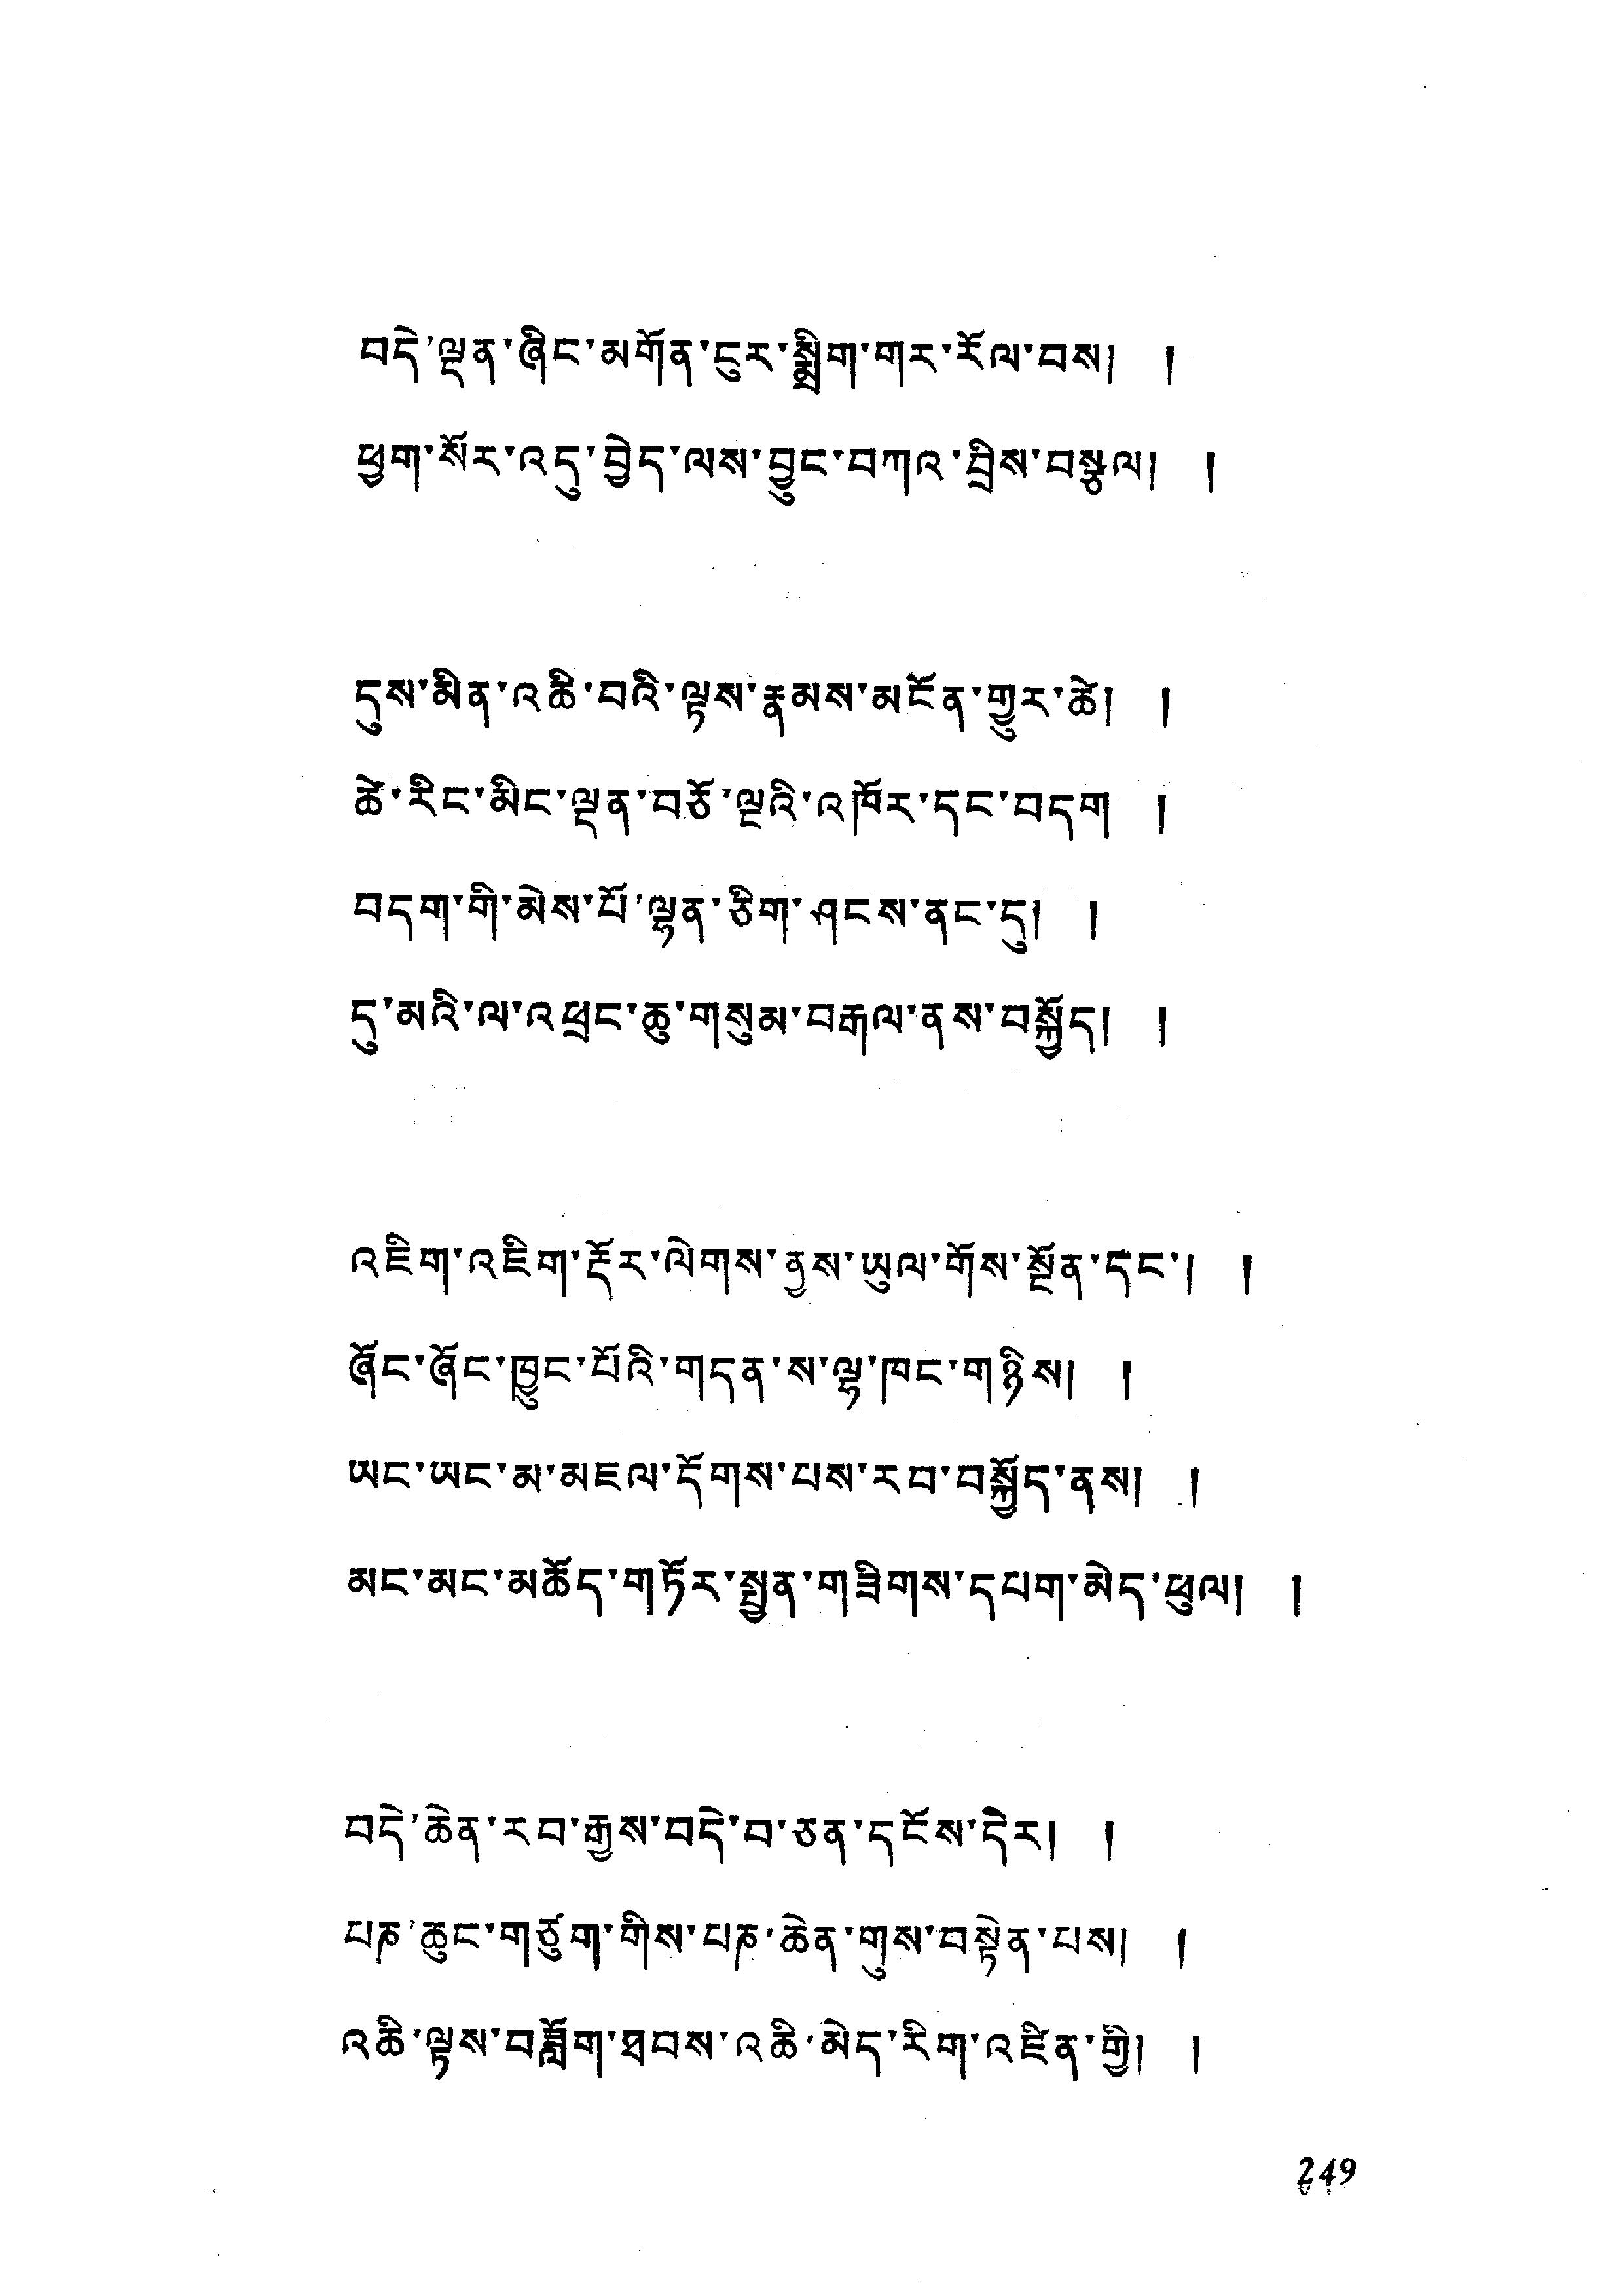བདེ་ལྡན་ཞིང་མགོན་ངུར་སྨྲིག་གར་རོལ་བས། །
ཕྱག་སོར་འདུ་བྱེད་ལས་བྱུང་བཀའ་བྲིས་བསྩལ། །
དུས་མིན་འཆི་བའི་ལྟས་རྣམས་མངོན་གྱུར་ཚེ། །
ཚེ་རིང་མིང་ལྡན་བཅོ་ལྔའི་འཁོར་དང་བདག །
བདག་གི་མེས་པོ་ལྷན་ཅིག་ཤངས་ནང་དུ། །
དུ་མའི་ལ་འཕྲང་ཆུ་གསུམ་བརྒལ་ནས་བསྐྱོད། །
འཇིག་འཇིག་རྡོར་ལེགས་ནྱས་ཡུལ་གོས་སྔོན་དང་། །
ཞོང་ཞོང་ཁྱུང་པོའི་གདན་ས་ལྷ་ཁང་གཉིས། །
ཡང་ཡང་མ་མཇལ་དོགས་པས་རབ་བསྐྱོད་ནས། །
མང་མང་མཆོད་གཏོར་སྤྱན་གཟིགས་དཔག་མེད་ཕུལ། །
བདེ་ཆེན་རབ་རྒྱས་བདེ་བ་ཅན་དངོས་དེར། །
པཎ་ཆུང་གཙུག་གིས་པཎ་ཆེན་གུས་བསྟེན་པས། །
འཆི་ལྟས་བཟློག་ཐབས་འཆི་མེད་རིག་འཛིན་གྱི། །
249
